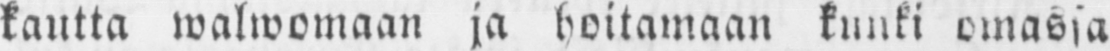kautta walwomaan ja hoitamaan kunki omassa
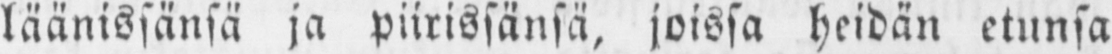läänissänsä ja piirissänsä, joissa heidän etunsa
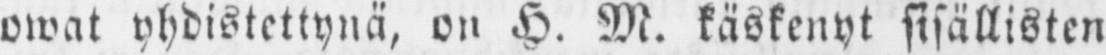owat yhdistettynä, on H. M. käskenyt sisällisten
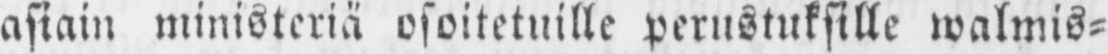asiain ministeriä osoitetuille perustuksille walmis-
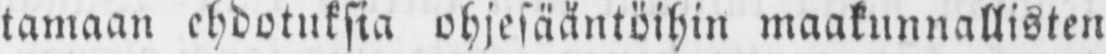tamaan ehdotuksia ohjesääntöihin maakunnallisten
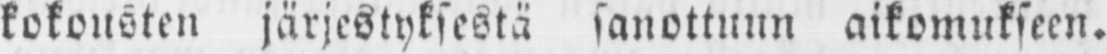kokousten järjestyksestä sanottuun aikomukseen.
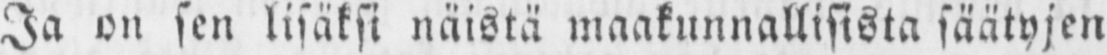Ja on sen lisäksi näistä maakunnallisista säätyjen
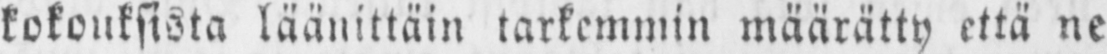kokouksista läänittäin tarkemmin määrätty että ne
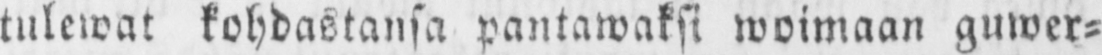tulewat kohdastansa pantawaksi woimaan guwer-
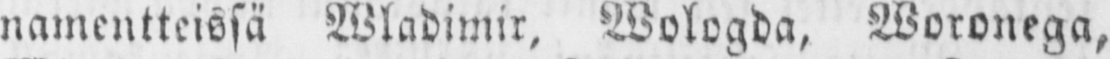namentteissä Wladimir, Wologda, Woronega,
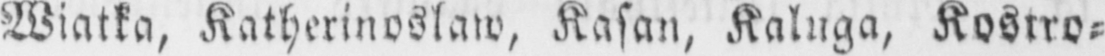Wiatka, Katherinoslaw, Kasan, Kaluga, Kostro-
